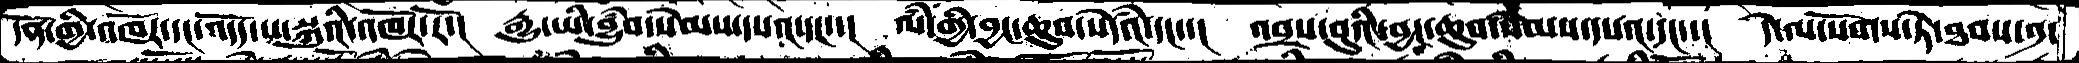དོན་གྱི་འཁོར་དང་འདོད་པ་སྐུའི་འཁོར་རོ་།  རྒྱུ་ཡི་བྱུཾབ་སེམས་དཔའ་དང་་།  ལཾ་གྱི་བྱང་ཆུབ་སེཾདའ་དང་་།  འབྲས་བུའི་བྱང་ཆུབ་སེམས་དཔའ་དང་་།  དེ་ལ་སོགས་ཏེ་ཐབས་༡་
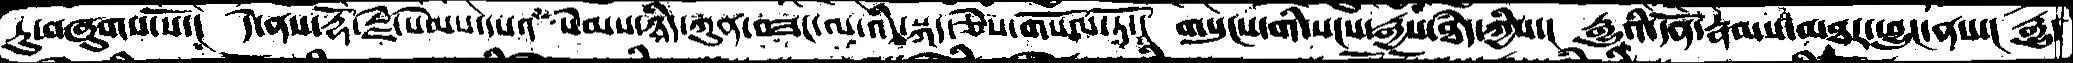ཏུ་བཞུགས་སོ་།  དེ་ནས་རྡོརྗེ་སེམས་དཔའ་ སེམས་ཉིད་ཀུན་བཟང་ལ་འདི་སྐད་ཅེས་གསོལ་ཏོ་།  གསུངས་གི་སངས་རྒྱས་ཐཾད་ཀྱིས་།  རྒྱུའི་དོན་རྣམས་མཐར་ཕྱུང་ནས་།  རྒྱུ་
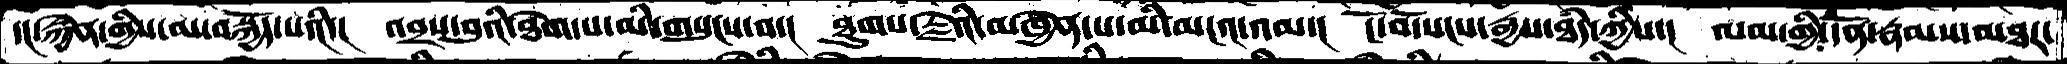དང་རྐྱེན་གྱིས་མ་བསྐྱོད་པའི་།  འབྲས་བུའི་ཐེག་པ་མི་གསུངས་བ་།  ཐུགས་རྗེའི་མཁྱེན་པ་མི་མངའ་འམ་།  ངོ་བོ་སངས་རྒྱས་ཐཾད་ཀྱིས་།  ལམ་གྱི་དོན་རྣམས་མཐར་
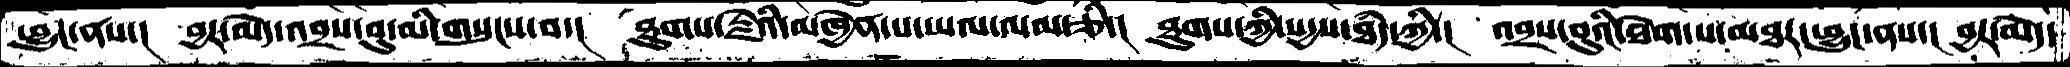ཕྱུང་ནས་།  བྱར་མེད་འབྲས་བུ་མི་གསུངས་བ་།  ཐུགས་རྗེའི་མཁྱེན་པ་ཡལ་ལམ་ཅི་།   ཐུགས་ཀྱི་སདྱས་ཐཾད་ཀྱི་།  འབྲས་བུའི་ཐེག་པ་མཐར་ཕྱུང་ནས་།  བྱར་མེད་
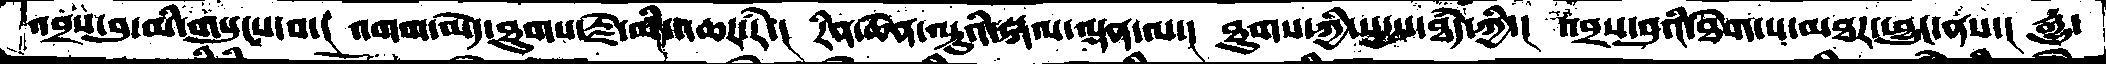འབྲས་བུ་མི་གསུངས་བ་།  འགག་མེད་ཐུགས་རྗེ་མི་འཆར་རཾ་།  རིན་ཆེན་ལྟུའི་སྐལ་ལྡན་ལ་།  ཐུགས་ཀྱི་སདྱས་ཐཾད་ཀྱི་།  འབྲས་བུའི་ཐེག་པ་མཐར་ཕྱུང་ནས་། རྒྱུ་
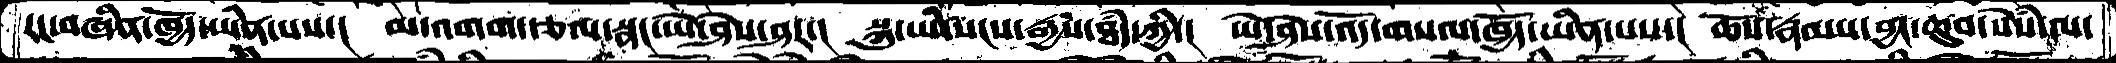རང་བཞིན་ཁྱོད་ཡིན་པས་།  མ་འགག་རྩལ་སྣང་ཡེ་ཤེས་ཤར་།  སྐུ་ཡི་སངས་རྒྱས་ཐཾད་ཀྱི་།  ཡེ་ཤེས་འོད་གསལ་ཁྱོད་ཡིན་པས་།  ཆོས་རྣམས་བྱང་ཆུབ་སེཾས་ལ་
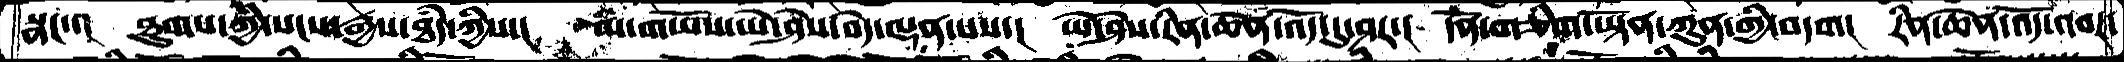སྣང་་།  ཐུགས་ཀྱི་སངས་རྒྱས་ཐཾད་ཀྱིས་།  མི་གཡོས་ཡེ་ཤེས་བདེ་ལྡན་པས་།   ཡེ་ཤེས་རིན་ཆེན་འོད་དུ་ཤར་།  དོན་གཅིག་ཡྟོན་ཀུན་གྱི་བདག།  རིན་ཆེན་འོད་འབར་
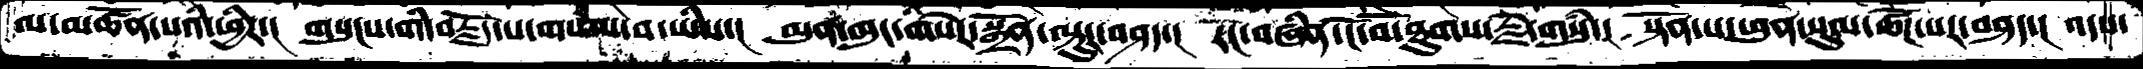ལ་མཚོན་པའི་ཕྱིར་།  གསུངས་གི་བརྗོད་པ་གསལ་བ་ཡིས་།  མུན་ཁུང་གསེར་སྒྲོན་ལྟུར་བཤད་།  རང་བཞིན་ངོ་བོ་ཐུགས་རྗེ་གསུཾ་།  སྟོན་པ་ཕུན་སུམ་ཚོཌ་པར་བཤད་།  འདས་
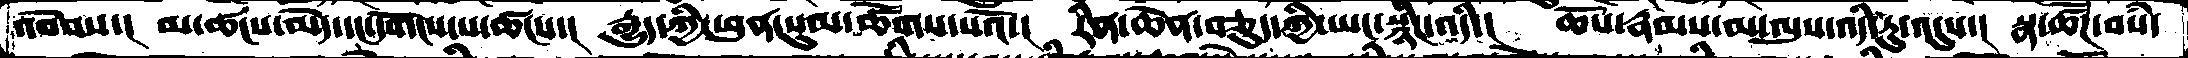འབེབས་།  མ་ཚངས་མེད་དང་དགོངས་པ་ཚངས་།  རྒྱུད་ཀྱི་ཕུན་སུམ་ཚོགས་པའོ་།  རིན་ཆེན་བཅུད་ཀྱི་ཡང་སྙིང་འདི་།  ཆོས་རྣམས་མ་ལུས་འདི་རུ་འདུས་།  སྣ་ཚོཌ་བསཾ་
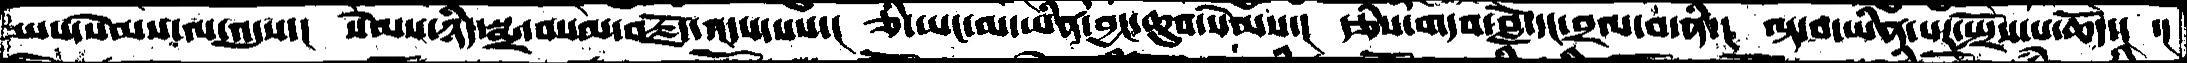ཡས་སེམས་ལ་འདུས་་།  སེམས་ཉིད་སྨྲ་བསམ་བརྗོད་འདས་པས་།  ཅི་ཡང་མ་ཡིན་བྱང་ཆུབ་སེམས་།  རྩིས་གདབ་བློ་དང་བྲལ་བ་ནི་།  ལྟ་བ་ཡིན་པར་སྤྲོས་པ་ཆོད་།  ་།
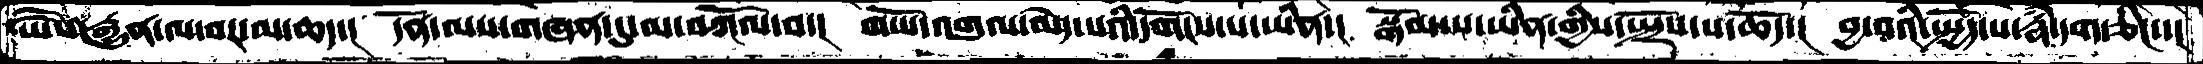ཡཻས་རྒྱུན་ལ་བར་མ་ཆད་།  དོན་ལས་གཞན་དུ་མ་བཀོལ་བ་།  གཡོ་འགུལ་མེད་པའི་དགོངས་པ་ཡིན་།  སྒོམ་པ་ཡིན་གྱིས་སྤྲོས་པ་ཆོད་།  བྱ་བའི་སྤྱོད་པ་རྣཾ་དག་ཅིང་་།
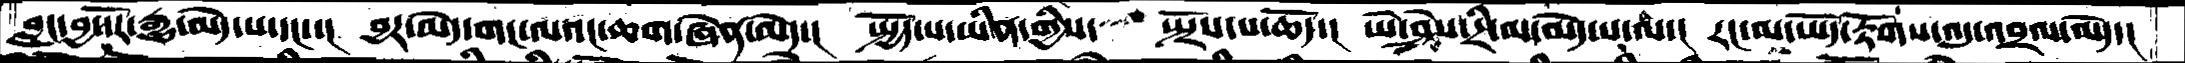བླང་བྱ་དོར་རྒྱུ་མེད་པ་དང་་།  བྱར་མེད་གང་ལའང་ཆག་ཞེན་མེད་།  སྤྱོད་པ་ཡིན་གྱིས་      སྤྲོས་པ་ཆོད་།  ཡེ་ཤེས་དྲི་མ་མེད་པ་ལ་།  རང་ལ་ཡོད་རྟོགས་འདུ་འབྲལ་མེད་།
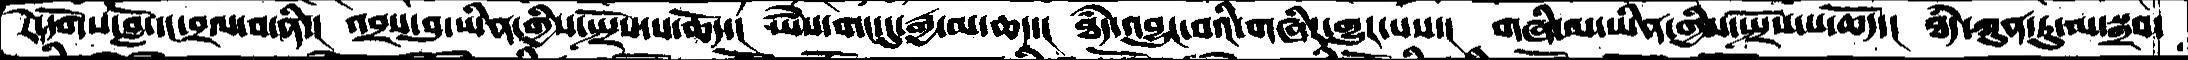རེ་དོགས་བློ་དང་བྲལ་བ་ནི་།  འབྲས་བུ་ཡིན་གྱིས་སྤྲོས་པ་ཆོད་།  ཡཻས་གང་དུ་རྒྱ་མ་ཆད་།  ཐཾད་འབྱུང་བའི་གཞིར་གྱུར་པས་།  གཞི་མ་ཡིན་གྱིས་སྤྲོས་པ་ཆོད་།  ཐཾད་ཀུན་ཏུ་མ་སྒྲབ་
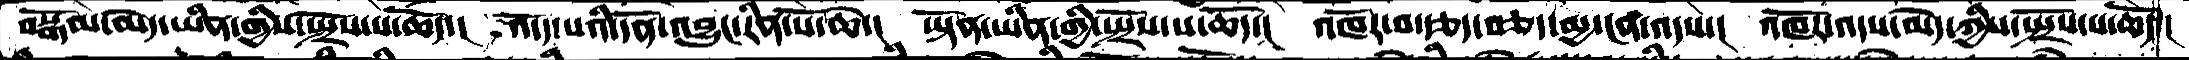བསྒོམ་མེད་ཡིན་གྱིས་སྤྲོས་པ་ཆོད་།  འདོད་པའི་དོན་འབྱུང་རིན་པོ་ཆེ་།  ཡྟོན་ཡིན་གྱི་སྤྲོས་པ་ཆོད་།  འཁོར་བ་རྩད་བཅད་མྱ་ངན་འདས་།  འཁོར་འདས་མེད་ཀྱིས་སྤྲོས་པ་ཆོད་།
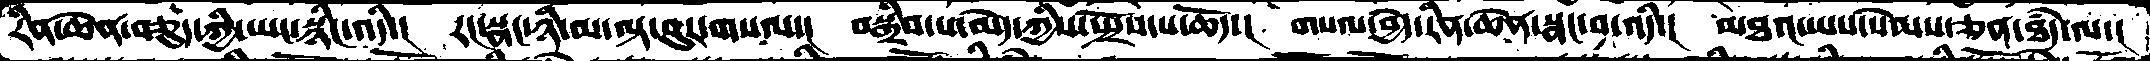རིན་ཆེན་བཅུད་ཀྱི་ཡང་སྙིང་འདི་།  རང་སྣང་ཉི་མ་ལྟ་བུར་གསལ་།  བསྒྲིབ་པ་མེད་ཀྱིས་སྤྲོས་པ་ཆོད་།  གསལ་བྱེད་རིན་ཆེན་སྣང་བ་འདི་།  མཐའ་ཡས་སེམས་ཅན་ཐཾད་ལ་།
